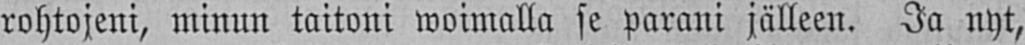rohtojeni, minun taitoni woimalla se parani jälleen. Ja nyt,
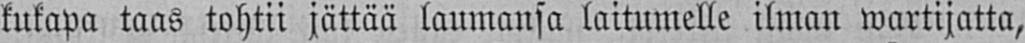kukapa taas tohtii jättää laumansa laitumelle ilman wartijatta,
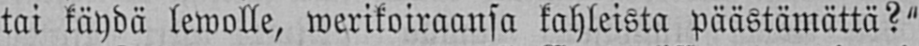tai käydä lewolle, werikoiraansa kahleista päästämättä?"
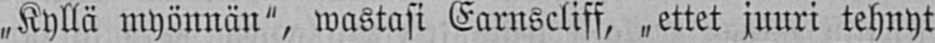„Kyllä myönnän", wastasi Earnscliff, „ettet juuri tehnyt
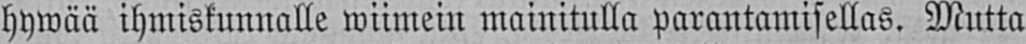hywää ihmiskunnalle wiimein mainitulla parantamisellas. Mutta
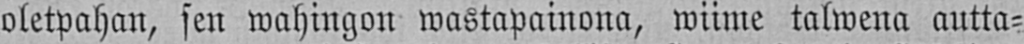oletpahan, sen wahingon wastapainona, wiime talwena autta-
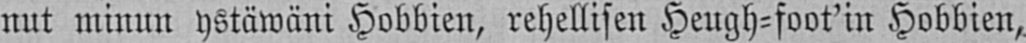nut minun ystäwäni Hobbien, rehellisen Heugh-foot'in Hobbien,
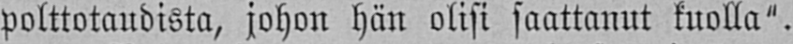polttotaudista, johon hän olisi saattanut kuolla".
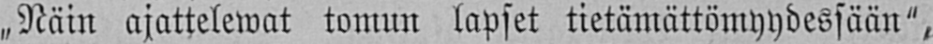„Näin ajattelewat tomun lapset tietämättömyydessään",
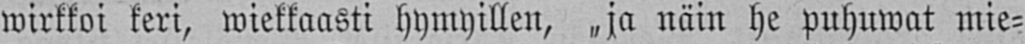wirkkoi keri, wiekkaasti hymyillen, „ja näin he puhuwat mie-
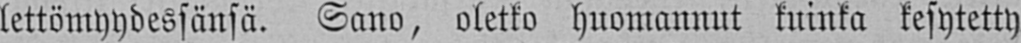lettömyydessänsä. Sano, oletko huomannut kuinka kesytetty
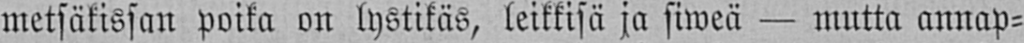metsäkissan poika on lystikäs, leikkisä ja siweä — mutta annap-
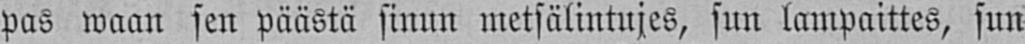pas waan sen päästä sinun metsälintujes, sun lampaittes, sun
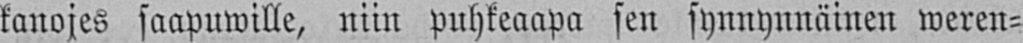kanojes saapuwille, niin puhkeaapa sen synnynnäinen weren-
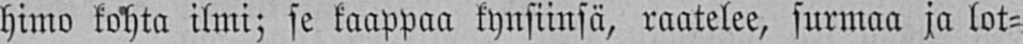himo kohta ilmi; se kaappaa kynsiinsä, raatelee, surmaa ja lot-
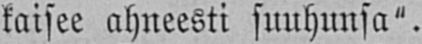kaisee ahneesti suuhunsa".
